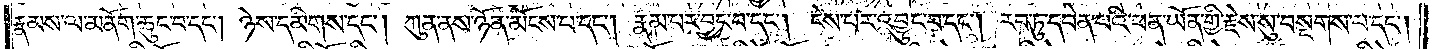རྣམས་ལ་མནོག་ཆུང་བ་དང༌། ཉེས་དམིགས་དང༌། ཀུན་ནས་ཉོན་མོངས་པ་དང༌། རྣམ་པར་བྱང་བ་དང༌། ངེས་པར་འབྱུང་བ་དང༌། རབ་ཏུ་དབེན་པའི་ཕན་ཡོན་གྱི་རྗེས་སུ་བསྔགས་པ་དང༌།
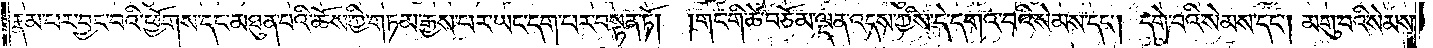རྣམ་པར་བྱང་བའི་ཕྱོགས་དང་མཐུན་པའི་ཆོས་ཀྱི་གཏམ་རྒྱས་པར་ཡང་དག་པར་བསྟན་ཏོ། །གང་གི་ཚེ་བཅོམ་ལྡན་འདས་ཀྱིས་དེ་དགའ་བའི་སེམས་དང༌། དགེ་བའི་སེམས་དང༌། མགུ་བའི་སེམས་
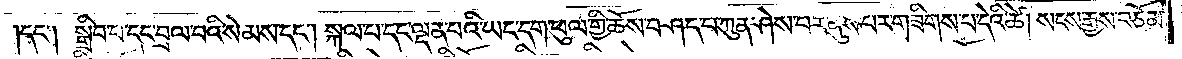དང༌། སྒྲིབ་པ་དང་བྲལ་བའི་སེམས་དང༌། སྐལ་པ་དང་ལྡན་པའི་ཡང་དག་པ་ཕུལ་གྱི་ཆོས་བཤད་པ་ཀུན་ཤེས་པར་ནུས་པར་གཟིགས་པ་དེའི་ཚེ། སངས་རྒྱས་བཅོམ་
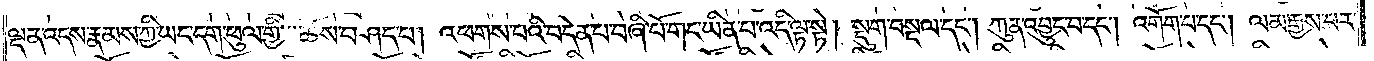ལྡན་འདས་རྣམས་ཀྱི་ཡང་དག་ཕུལ་གྱི་ཆོས་བཤད་པ། འཕགས་པའི་བདེན་པ་བཞི་པོ་གང་ཡིན་པ་འདི་ལྟ་སྟེ། སྡུག་བསྔལ་དང༌། ཀུན་འབྱུང་བ་དང༌། འགོག་པ་དང༌། ལམ་རྒྱས་པར་
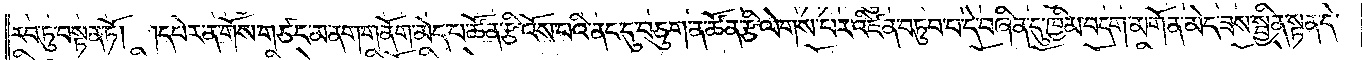རབ་ཏུ་བསྟན་ཏོ། །དཔེར་ན་གོས་གཙང་མ་ནག་གནོག་མེད་པ་ཚོན་རྩི་འོས་པའི་ནང་དུ་བཅུག་ན་ཚོན་རྩི་ལེགས་པར་འཛིན་བཏུབ་པ་དེ་བཞིན་དུ་ཁྱིམ་བདག་མགོན་མེད་ཟས་སྦྱིན་སྟན་དེ་
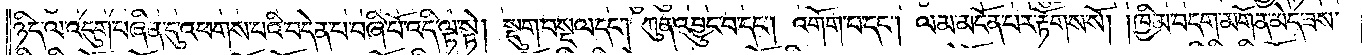ཉིད་ལ་འདུག་བཞིན་དུ་འཕགས་པའི་བདེན་པ་བཞི་པོ་འདི་ལྟ་སྟེ། སྡུག་བསྔལ་དང༌། ཀུན་འབྱུང་བ་དང༌། འགོག་པ་དང༌། ལམ་མངོན་པར་རྟོགས་སོ། །ཁྱིམ་བདག་མགོན་མེད་ཟས་
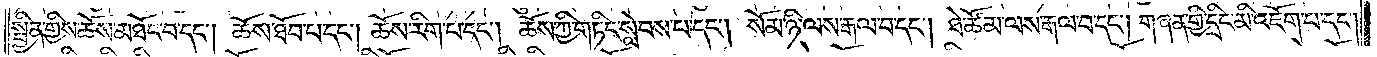སྦྱིན་གྱིས་ཆོས་མཐོང་བ་དང༌། ཆོས་ཐོབ་པ་དང༌། ཆོས་རིག་པ་དང༌། ཆོས་ཀྱི་གཏིང་སླེབས་པ་དང༌། སོམ་ཉི་ལས་རྒལ་བ་དང༌། ཐེ་ཚོམ་ལས་རྒལ་བ་དང༌། གཞན་གྱི་དྲིང་མི་འཇོག་པ་དང༌།
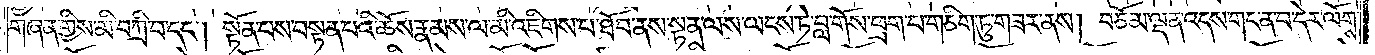གཞན་གྱིས་མི་བཀྲི་བ་དང༌། སྟོན་པས་བསྟན་པའི་ཆོས་རྣམས་ལ་མི་འཇིགས་པ་ཐོབ་ནས་སྟན་ལས་ལངས་ཏེ་བླ་གོས་ཕྲག་པ་གཅིག་ཏུ་གཟར་ནས། བཅོམ་ལྡན་འདས་གང་ན་བ་དེར་ལོགས་
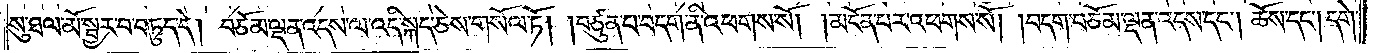སུ་ཐལ་མོ་སྦྱར་བ་བཏུད་དེ། བཅོམ་ལྡན་འདས་ལ་འདི་སྐད་ཅེས་གསོལ་ཏོ། །བཙུན་པ་བདག་ནི་འཕགས་སོ། །མངོན་པར་འཕགས་སོ། །བདག་བཅོམ་ལྡན་འདས་དང༌། ཆོས་དང༌། དགེ་
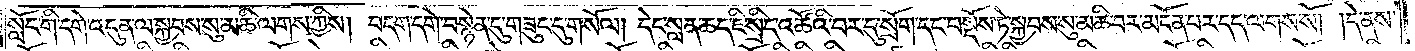སློང་གི་དགེ་འདུན་ལ་སྐྱབས་སུ་མཆི་ལགས་ཀྱིས། བདག་དགེ་བསྙེན་དུ་གཟུང་དུ་གསོལ། དེང་སླན་ཆད་ཇི་སྲིད་འཚོའི་བར་དུ་སྲོག་དང་བསྡོས་ཏེ་སྐྱབས་སུ་མཆི་བར་མངོན་པར་དད་ལགས་སོ། །དེ་ནས་
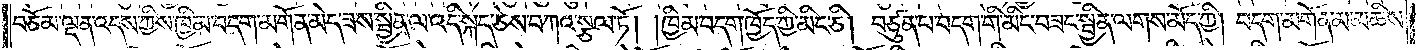བཅོམ་ལྡན་འདས་ཀྱིས་ཁྱིམ་བདག་མགོན་མེད་ཟས་སྦྱིན་ལ་འདི་སྐད་ཅེས་བཀའ་སྩལ་ཏོ། །ཁྱིམ་བདག་ཁྱོད་ཀྱི་མིང་ཅི། བཙུན་པ་བདག་གི་མིང་བཟང་སྦྱིན་ལགས་མོད་ཀྱི། བདག་མགོན་མ་མཆིས་
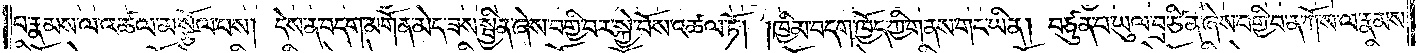པ་རྣམས་ལ་འཚལ་མ་སྩོལ་པས། དེས་ན་བདག་མགོན་མེད་ཟས་སྦྱིན་ཞེས་བགྱི་བར་སྐྱེ་བོས་འཚལ་ཏོ། །ཁྱིམ་བདག་ཁྱོད་ཀྱི་གནས་གང་ཡིན། བཙུན་པ་ཡུལ་བྲ་ཙི་ན་ཞེས་བགྱི་བ་ན་ཀོ་ས་ལ་རྣམས་
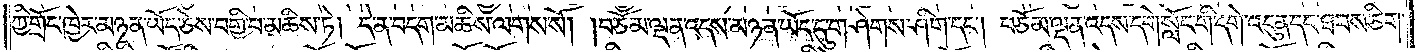ཀྱི་གྲོང་ཁྱེར་མཉན་ཡོད་ཅེས་བགྱི་པ་མཆིས་ཏེ། དེ་ན་བདག་མཆིས་ལགས་སོ། །བཅོམ་ལྡན་འདས་མཉན་ཡོད་དུ་གཤེགས་ཤིག་དང༌། བཅོམ་ལྡན་འདས་དགེ་སློང་གི་དགེ་འདུན་དང་ཐབས་ཅིག་
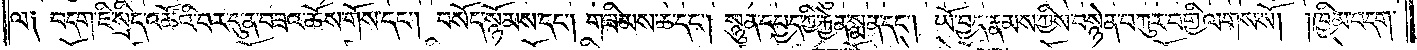ལ། བདག་ཇི་སྲིད་འཚོའི་བར་དུ་ན་བཟའ་ཆོས་གོས་དང༌། བསོད་སྙོམས་དང༌། གཟིམས་ཆ་དང༌། སྙུན་དཔྱད་ཀྱི་རྐྱེན་སྨན་དང༌། ཡོ་བྱད་རྣམས་ཀྱིས་བསྙེན་བཀུར་བགྱི་ལགས་སོ། །ཁྱིམ་བདག་
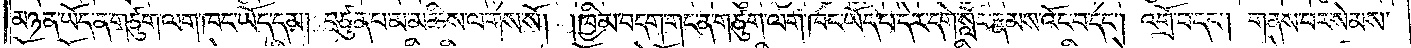མཉན་ཡོད་ན་གཙུག་ལག་ཁང་ཡོད་དམ། བཙུན་པ་མ་མཆིས་ལགས་སོ། །ཁྱིམ་བདག་གང་ན་གཙུག་ལག་ཁང་ཡོད་པ་དེར་དགེ་སློང་རྣམས་འོང་བ་དང༌། འགྲོ་བ་དང༌། གནས་པར་སེམས་
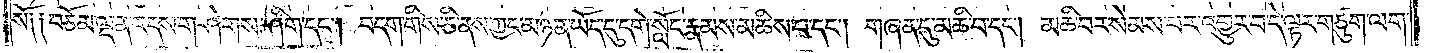སོ། །བཅོམ་ལྡན་འདས་གཤེགས་ཤིག་དང༌། བདག་གིས་ཅི་ནས་ཀྱང་མཉན་ཡོད་དུ་དགེ་སློང་རྣམས་མཆིས་པ་དང༌། གཞན་དུ་མཆི་བ་དང༌། མཆི་བར་སེམས་པར་འགྱུར་བ་དེ་ལྟར་གཙུག་ལག་
